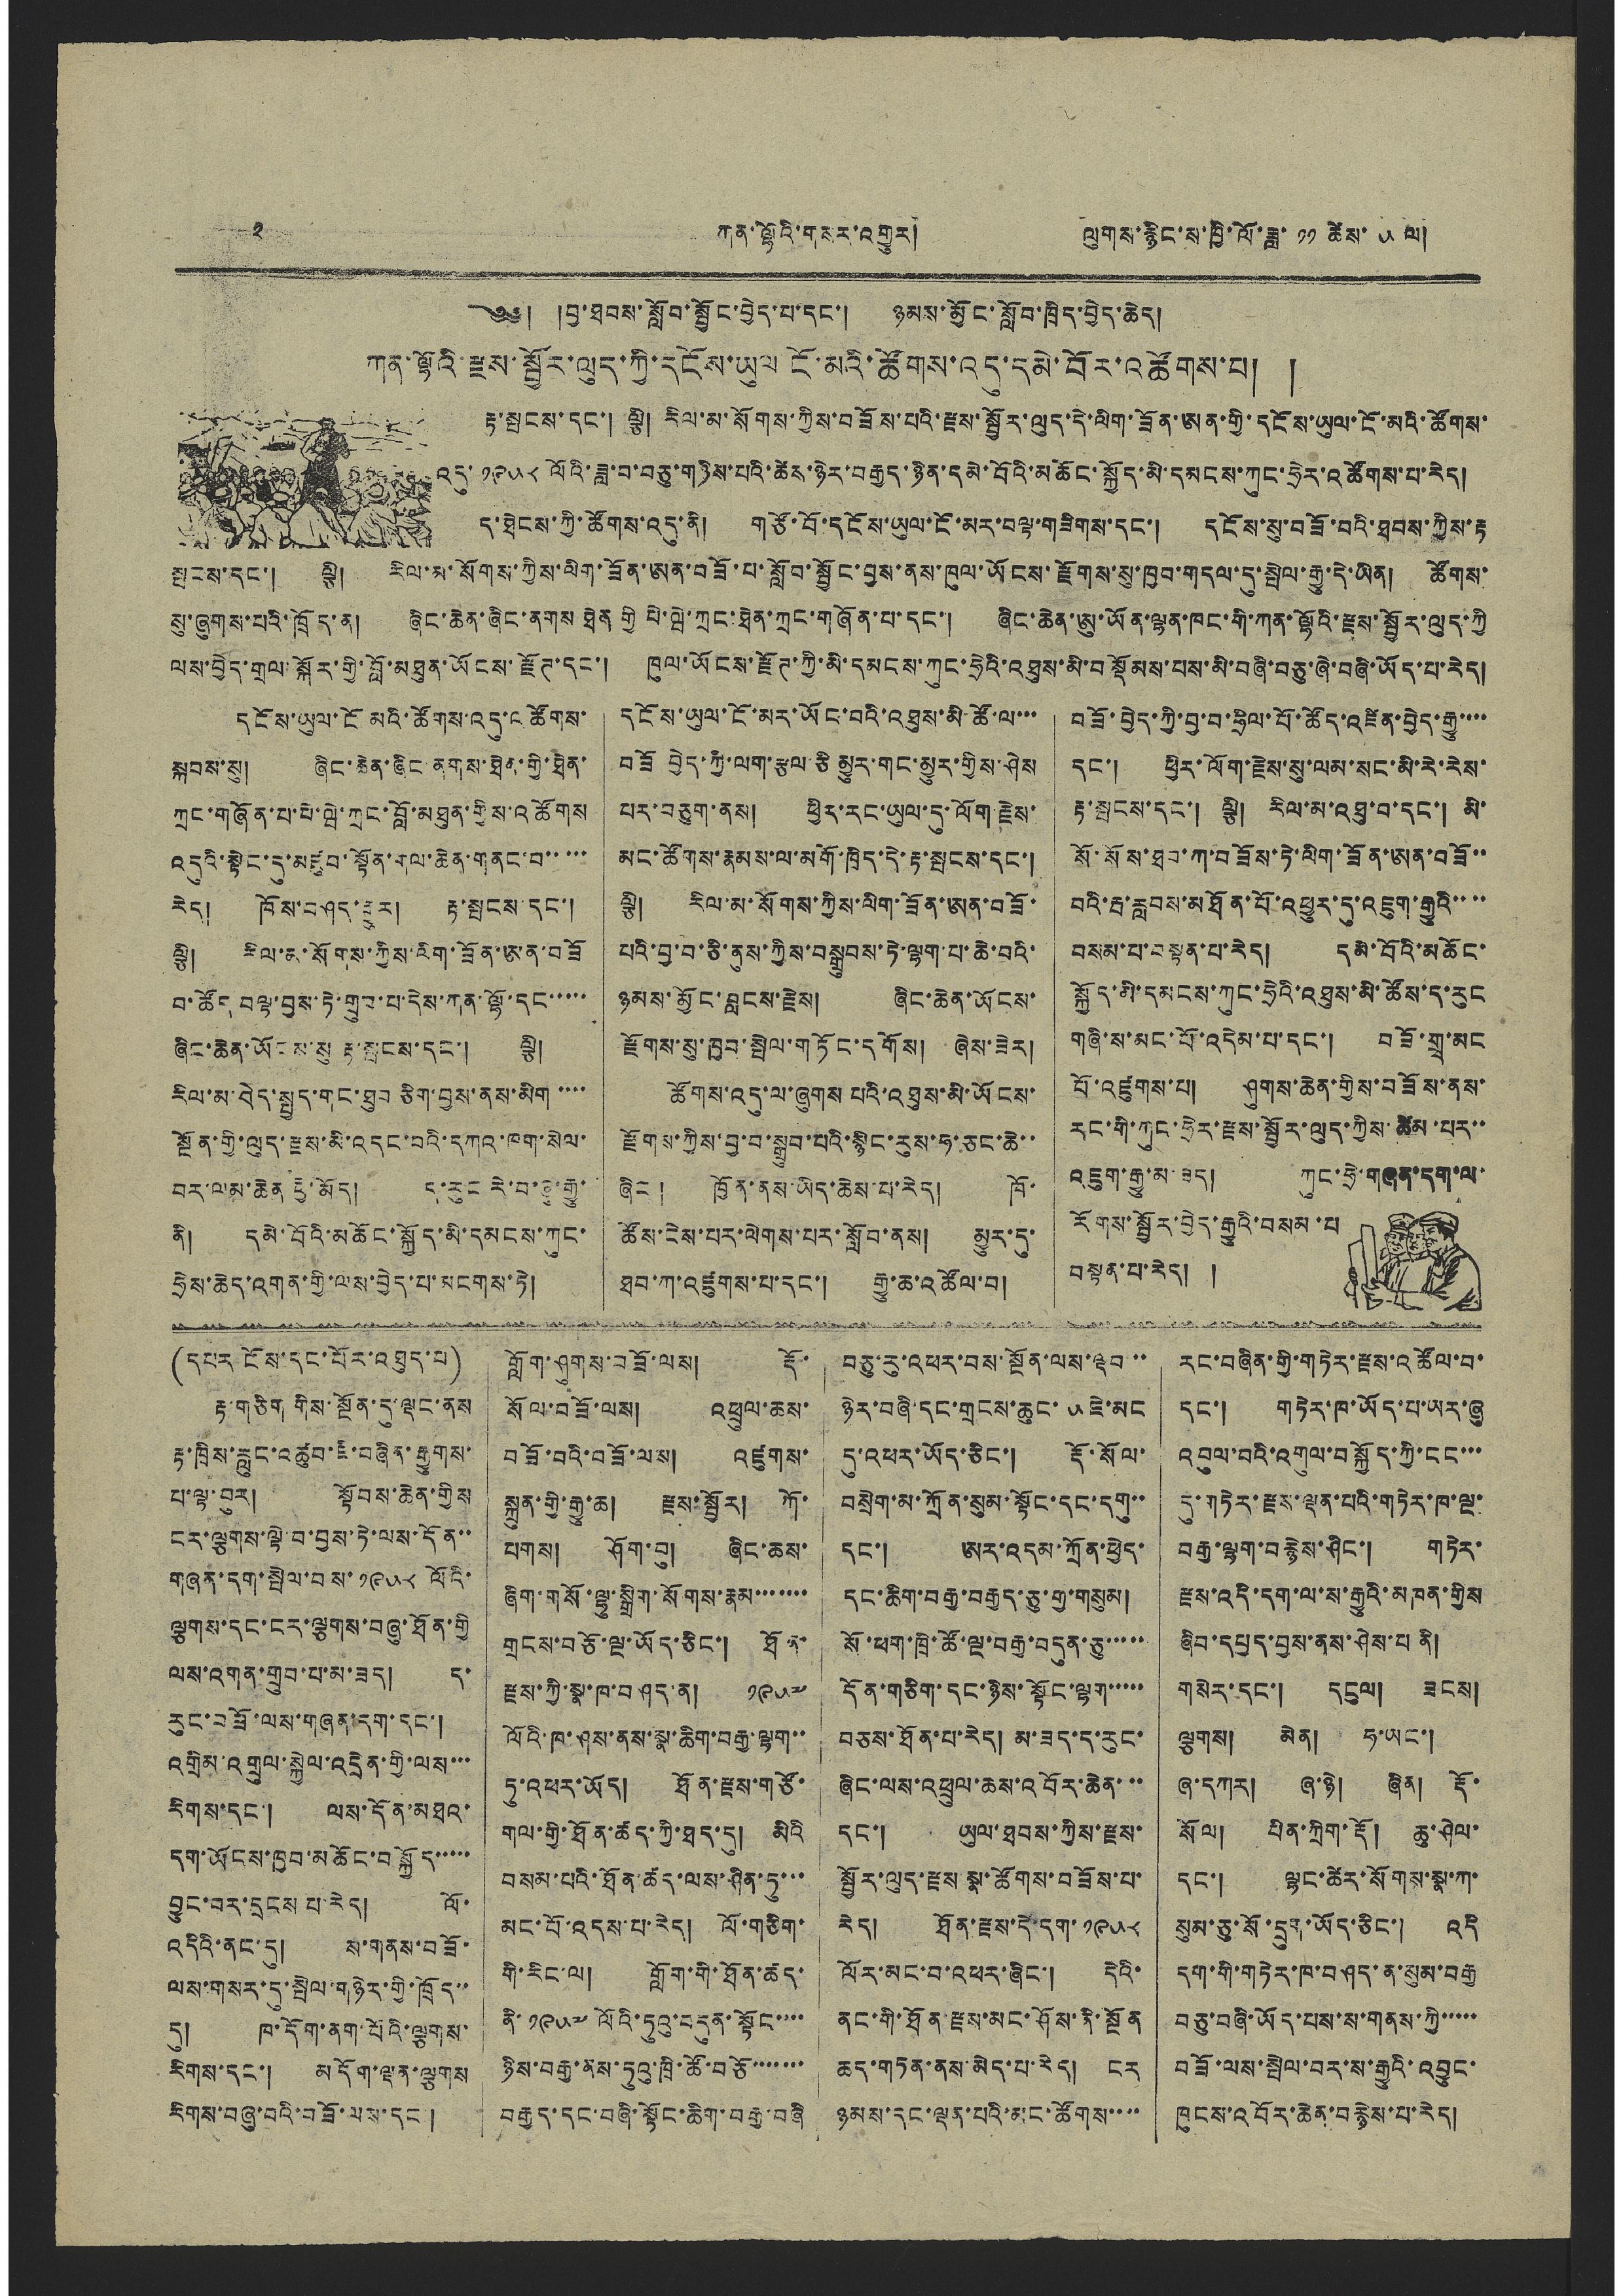༢ ཀན་ལྷོའི་གསར་འགྱུར། ལུགས་རྙིང་ས་ཁྱི་ལོ་ཟླ་ ༡༡ ཚེས་ ༥ ལ།
༄༅། །བྱ་ཐབས་སློབ་སྦྱོང་བྱེད་པ་དང་། ཉམས་མྱོང་སློབ་ཁྲིད་བྱེད་ཆེད།
ཀན་ལྷོའི་རྫས་སྦྱོར་ལུད་ཀྱི་དངོས་ཡུལ ངོ་མའི་ཚོགས་འདུ་དམེ་བོར་འཚོགས་པ། །
རྟ་སྦངས་དང་། ལྕི། རིལ་མ་སོགས་ཀྱིས་བཟོས་པའི་རྫས་སྦྱོར་ལུད་དེ་ལིག་ཟོན་ཨན་གྱི་དངོས་ཡུལ་ངོ་མའི་ཚོགས་
འདུ་ ༡༩༥༨ ལོའི་ཟླ་བ་བཅུ་གཉིས་པའི་ཚེས་ཉེར་བརྒྱད་ཉིན་དམེ་བོའི་མཆོང་སྐྱོད་མི་དམངས་ཀུང་ཧྲེར་འཚོགས་པ་རེད།
ད་ཐེངས་ཀྱི་ཚོགས་འདུ་ནི། གཙོ་བོ་དངོས་ཡུལ་ངོ་མར་བལྟ་གཟིགས་དང་། དངོས་སུ་བཟོ་བའི་ཐབས་ཀྱིས་རྟ
སྦངས་དང་། ལྕི། རིལ་མ་སོགས་ཀྱིས་ལིག་ཟོན་ཨན་བཟོ་པ་སློབ་སྦྱོང་བྱས་ནས་ཁུལ་ཡོངས་རྫོགས་སུ་ཁྱབ་གདལ་དུ་སྤེལ་རྒྱུ་དེ་ཡིན། ཚོགས་
སུ་ཞུགས་པའི་ཁྲོད་ན། ཞིང་ཆེན་ཞིང་ནགས་ཐེན་གྱི་པེ་ལྦེ་ཀྲང་ཐེན་ཀྲང་གཞོན་པ་དང་། ཞིང་ཆེན་ཨུ་ཡོན་ལྷན་ཁང་གི་ཀན་ལྷོའི་རྫས་སྦྱོར་ལུད་ཀྱི་
ལས་བྱེད་གྲལ་སྐོར་གྱི་བློ་མཐུན་ཡོངས་རྫོཊ་དང་། ཁུལ་ཡོངས་རྫོཊ་ཀྱི་མི་དམངས་ཀུང་ཧྲེའི་འཐུས་མི་བསྡོམས་པས་མི་བཞི་བཅུ་ཞེ་བཞི་ཡོད་པ་རེད།
དངོས་ཡུལ་ངོ་མའི་ཚོགས་འདུ་འཚོགས་
སྐབས་སུ། ཞིང་ཆེན་ཞིང་ནགས་ཐེན་གྱི་ཐེན་
ཀྲང་གཞོན་པ་པེ་ལྦེ་ཀྲང་བློ་མཐུན་གྱིས་འཚོགས
འདུའི་སྟེང་དུ་མཛུབ་སྟོན་གལ་ཆེན་གནང་བ་་་་་
རེད། ཁོས་བཤད་གྱུར། རྟ་སྤངས་དང་།
ལྕི། རིལ་མ་སོགས་ཀྱིས་ལིག་ཟོན་ཨན་བཟོ
བ་ཚོད་བལྟ་བྱས་ཏེ་གྲུབ་པ་དེས་ཀན་ལྷོ་དང་་་་་
ཞིང་ཆེན་ཡོངས་སུ རྟ་སྦངས་དང་། ལྕི།
རིལ་མ་བེད་སྤྱད་གང་ཐུབ ཅིག་བྱས་ནས་མིག་་་་
སྔོན་གྱི་ལུད་རྫས་མི་འདང་བའི་དཀའ་ཁག་སེལ་
བར་ལམ་ཆེན ཕྱི་མོད། ད་རུང རེ་བ་ཞུ་རྒྱུ་
ནི། དམེ་བོའི་མཆོང་སྐྱོད་མི་དམངས་ཀུང་
ཧྲེས་ཆེད་འགན་གྱི་ལས་བྱེད་པ་མངགས་ཏེ།
དངོས་ཡུལ་ངོ་མར་ཡོང་བའི་འཐུས་མི་ཚོ་ལ་་་
བཟོ བྱེད་ཀྱི་ལག་རྩལ་ཅི མྱུར་གང་མྱུར་གྱིས་ཤེས
པར་བཅུག་ནས། ཕྱིར་རང་ཡུལ་དུ་ལོག་རྗེས་
མང་ཚོགས་རྣམས་ལ་མགོ་ཁྲིད་དེ་རྟ་སྤངས་དང་།
ལྕི། རིལ་མ་སོགས་ཀྱིས་ལིག་ཟོན་ཨན་བཟོ་
པའི་བྱ་བ་ཅི་ནུས་ཀྱིས་བསྒྲུབས་ཏེ་ལྷག་པ་ཆེ་བའི་
ཉམས་མྱོང་བླངས་རྗེས། ཞིང་ཆེན་ཡོངས་
རྫོགས་སུ་ཁྱབ་སྤེལ་གཏོང་དགོས། ཞེས་ཟེར།
ཚོགས་འདུ་ལ་ཞུགས་པའི་འཐུས་མི་ཡོངས་
རྫོགས་ཀྱིས་བྱ་བ་སྒྲུབ་པའི་སྙིང་རུས་ཧ་ཅང་ཆེ་་
ཞིང། ཁྱོན་ནས་ཡིད་ཆེས་པ་རེད། ཁོ་
ཚོས་ངེས་པར་ལེགས་པར་སློབ་ནས། མྱུར་དུ་
ཐབ་ཀ་འཛུགས་པ་དང་། རྒྱུ་ཆ་འཚོལ་བ།
བཟོ་བྱེད་ཀྱི་བྱ་བ་ཧྲིལ་པོ་ཚོད་འཛིན་བྱེད་རྒྱུ་་་་
དང་། ཕྱིར་ལོག་རྗེས་སུ་ལམ་སང་མི་རེ་རེས་
རྟ་སྤངས་དང་། ལྕི། རིལ་མ་འཐུ་བ་དང་། མི་
སོ་སོས་ཐབ་ཀ་བཟོས་ཏེ་ལིག་ཟོན་ཨན་བཟོ་་
བའི་རྦ་རླབས་མཐོན་པོ་འཕྱུར་དུ་འཇུག་རྒྱུའི་་་་
བསམ་པ་བསྟན་པ་རེད། དམེ་བོའི་མཆོང་
སྐྱོད་མི་དམངས་ཀུང་ཧྲིའི་འཐུས་མི་ཚོས་ད་རུང
གཞི་ས་མང་པོ་འདེམ་པ་དང་། བཟོ་གྲྭ་མང
པོ་འཛུགས་པ། ཤུགས་ཆེན་གྱིས་བཟོས་ནས་
རང་གི་ཀུང་ཧྲེར་རྫས་སྦྱོར་ལུད་ཀྱིས་ཚིམ་པར་་
འཇུག་རྒྱུ་མ་ཟད། ཀུང་ཧྲེ་གཞན་དག་ལ་
རོགས་སྦྱོར་བྱེད་རྒྱུའི་བསམ་པ
བསྟན་པ་རེད། །
(དཔར་ངོས་དང་པོར་འཐུད་པ)
རྟ་གཅིག གིས་སྔོན་དུ་ལྡང་ནས
རྟ་ཁྲིས་རླུང་འཚུབ་ཇི་བཞིན་རྒྱུགས་
པ་ལྟ་བུར། སྟོབས་ཆེན་གྱིས
ངར་ལྕགས་ལྟེ་བ་བྱས་ཏེ་ལས་དོན་་
གཞན་དག་སྤེལ་བས་ ༡༩༥༨ ལོའི་
ལྕགས་དང་ངར་ལྕགས་བཞུ་ཐོན་གྱི
ལས་འགན་གྲུབ་པ་མ་ཟད། ད་
རུང་བཟོ་ལས་གཞན་དག་དང་།
འགྲིམ་འགྲུལ་སྐྱེལ་འདྲེན་གྱི་ལས་་་
རིགས་དང་། ལས་དོན་མཐའ་
དག་ཡོངས་ཁྱབ་མཆོང་བསྐྱོད་་་་་
བྱུང་བར་དྲངས་པ་རེད། ལོ་
འདིའི་ནང་དུ། ས་གནས་བཟོ་
ལས་གསར་དུ་སྤེལ་གཉེར་གྱི་ཁྲོད་་
དུ། ཁ་དོག་ནག་པོའི་ལྕགས་
རིགས་དང་། མདོག་ལྡན་ལྕགས
རིགས་བཞུ་བའི་བཟོ་ལས་དང་།
གློག་ཤུགས་བཟོ་ལས། རྡོ་
སོལ་བཟོ་ལས། འཕྲུལ་ཆས་
བཟོ་བའི་བཟོ་ལས། འཛུགས་
སྐྲུན་གྱི་རྒྱུ་ཆ། རྫས་སྦྱོར། ཀོ་
པགས། ཤོག་བུ། ཞིང་ཆས་
ཞིག་གསོ་ལྷུ་སྒྲིག་སོགས་རྣམ་་་་་་་
གྲངས་བཅོ་ལྔ་ཡོད་ཅིང་། ཐོན་
རྫས་ཀྱི་སྣ་ཁ་བཤད་ན། ༡༩༥༧
ལོའི་ཁ་ཤས་ནས་སྣ་ཆིག་བརྒྱ་ལྷག་་
ཏུ་འཕར་ཡོད། ཐོན་རྫས་གཙོ་
གལ་གྱི་ཐོན་ཚད་ཀྱི་ཐད་དུ། མིའི་
བསམ་པའི་ཐོན་ཚད་ལས་ཤིན་ཏུ་་་
མང་པོ་འདས་པ་རེད། པོ་གཅིག་
གི་རིང་ལ། གློག་གི་ཐོན་ཚད་
ནི་ ༡༩༥༧ ལོའི་ཏུའུ་བདུན་སྟོང་་་་
ཉིས་བརྒྱ་ནས་ཏུའུ་ཁྲི་ཚོ་བཅོ་་་་་་་
བརྒྱད་དང་བཞི་སྟོང་ཆིག་བརྒྱ་བཞི
བཅུ་རུ་འཕར་བས་སྔོན་ལས་ལྡབ་་་
ཉེར་བཞི་དང་གྲངས་ཆུང་ ༥ ཇེ་མང་
དུ་འཕར་ཡོད་ཅིང་། རྡོ་སོལ་
བསྲེག་མ་ཀྲོན་སུམ་སྟོང་དང་དགུ་་
དང་། ཨར་འདམ་ཀྲོན་ཕྱེད་
དང་ཆིག་བརྒྱ་བརྒྱད་ཅུ་གྱ་གསུམ།
སོ་ཕག་ཁྲི་ཚོ་ལྔ་བརྒྱ་བདུན་ཅུ་་་་་
དོན་གཅིག་དང་ཉིས་སྟོང་ལྷག་་་་་
བཅས་ཐོན་པ་རེད། མ་ཟད་ད་རུང་
ཞིང་ལས་འཕྲུལ་ཆས་འབོར་ཆེན་་་
དང་། ཡུལ་ཐབས་ཀྱིས་རྫས་
སྦྱོར་ལུད་རྫས་སྣ་ཚོགས་བཟོས་པ་
རེད། ཐོན་རྫས་དེ་དག་ ༡༩༥༨
ལོར་མང་བ་འཕར་ཞིང་། དེའི་
ནང་གི་ཐོན་རྫས་མང་ཤོས་ནི་སྔོན
ཆད་གཏན་ནས་མེད་པ་རེད། ངར
ཉམས་དང་ལྡན་པའི་མང་ཚོགས་་་་
རང་བཞིན་གྱི་གཏེར་རྫས་འཚོལ་བ་
དང་། གཏེར་ཁ་ཡོད་པ་ཡར་ཞུ
འབུལ་བའི་འགུལ་བསྐྱོད་ཀྱི་ངང་་་
དུ་གཏེར་རྫས་ལྡན་པའི་གཏེར་ཁ་ལྔ་
བརྒྱ་ལྷག་བརྙེས་ཤིང་། གཏེར་
རྫས་འདི་དག་ལ་ས་རྒྱུའི་མཁན་གྱིས
ཞིབ་དཔྱད་བྱས་ནས་ཤེས་པ ནི།
གསེར་དང་། དངུལ། ཟངས།
ལྕགས། མེན། ཧ་ཡང་།
ཞ་དཀར། ཞ་ཉེ། ཞིན། རྡོ་
སོལ། པིན་ཀྲིག་རྡོ། ཆུ་ཤེལ་
དང་། ལྷང་ཚེར་སོགས་སྣ་ཀ་
སུམ་ཅུ་སོ་དྲུག་ཡོད་ཅིང་། འདི
དག་གི་གཏེར་ཁ་བཤད་ན་སུམ་བརྒྱ
བཅུ་བཞི་ཡོད་པས་ས་གནས་ཀྱི་་་་་
བཟོ་ལས་སྦེལ་བར་ས་རྒྱུའི་འབྱུང་
ཁུངས་འབོར་ཆེན་བརྙེས་པ་རེད།
